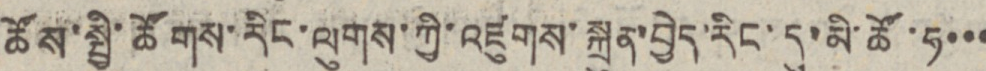ཚོས་སྤྱི་ཚོགས་རིང་ལུགས་ཀྱི་འཛུགས་སྐྲུན་བྱེད་རིང་དུ་མི་ཚོ་ཧ་་་
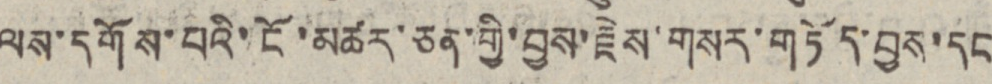ལས་དགོས་པའི་ངོ་མཚར་ཅན་གྱི་བྱས་རྗེས་གསར་གཏོད་བྱས་དང
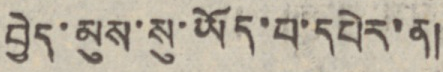བྱེད་མུས་སུ་ཡོད་པ་དཔེར་ན།
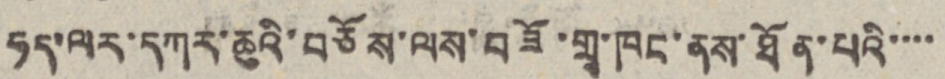ཧད་ལར་དཀར་ཆུའི་བཅོས་ལས་བཟོ་གྲྭ་ཁང་ནས་ཐོན་པའི་་་་
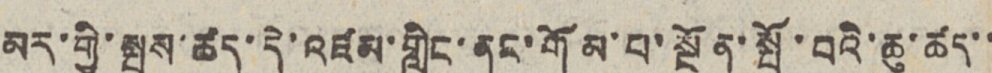མར་གྱི་སྤུས་ཚད་དེ་འཛམ་གླིང་ནང་གོམ་པ་སྔོན་སྤོ་བའི་ཆུ་ཚད་་
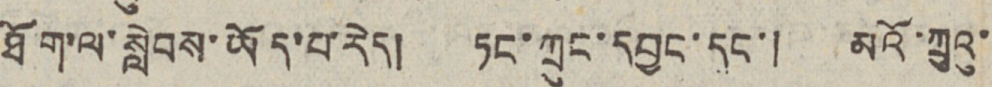ཐོག་ལ་སླེབས་ཡོད་པ་རེད། ཏང་ཀྲུང་དབྱང་དང་། མའོ་ཀྲུའུ་
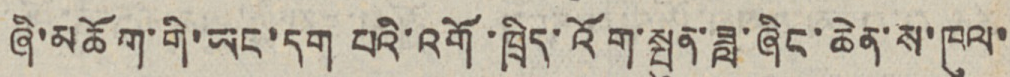ཞི་མཆོག་གི་ཡང་དག པའི་འགོ་ཁྲིད་འོག་སྤུན་ཟླ་ཞིང་ཆེན་ས་ཁུལ་
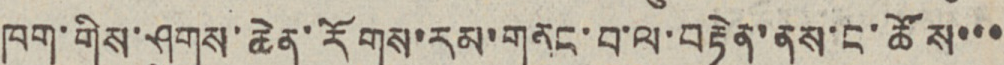ཁག་གིས་ཤུགས་ཆེན་རོགས་རམ་གནང་བ་ལ་བརྟེན་ནས་ང་ཚོས་་་
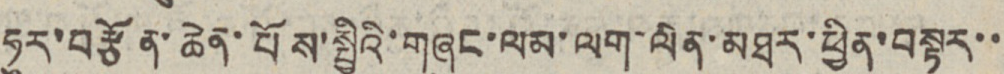ཧུར་བརྩོན་ཆེན་པོས་སྤྱིའི་གཞུང་ལམ་ལག་ལེན་མཐར་ཕྱིན་བསྟར་་
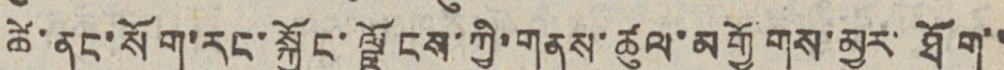ཚེ་ནང་སོག་རང་སྐྱོང་ལྗོངས་ཀྱི་གནས་ཚུལ་མགྱོགས་མྱུར་ཐོག་་
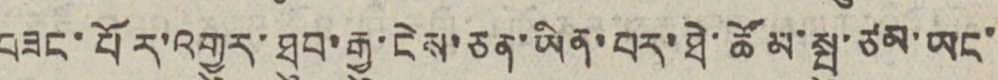བཟང་པོར་འགྱུར་ཐུབ་རྒྱུ་ངེས་ཅན་ཡིན་པར་ཐེ་ཚོམ་སྤུ་ཙམ་ཡང་
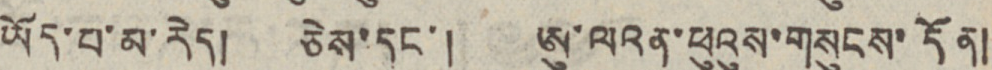ཡོད་པ་མ་རེད། ཅེས་དང་། ཨུ་ལའན་ཕུའུས་གསུངས་དོན།
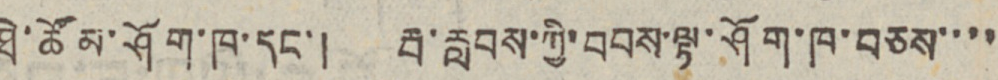ཐེ་ཚོམ་ཤོག་ཁ་དང་། རྦ་རླབས་ཀྱི་བབས་ལྟ་ཤོག་ཁ་བཅས་་་་
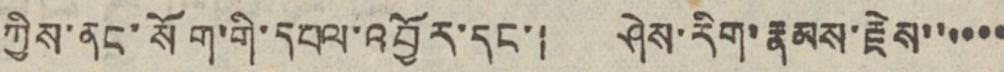ཀྱིས་ནང་སོག་གི་དཔལ་འབྱོར་དང་། ཤེས་རིག་རྣམས་རྗེས་་་་་་
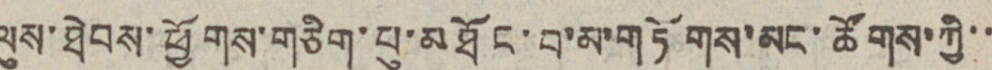ལུས་ཐེབས་ཕྱོགས་གཅིག་པུ་མཐོང་བུ་མ་གཏོགས་མང་ཚོགས་ཀྱི་་
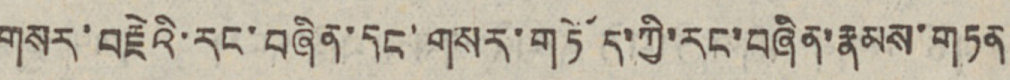གསར་བརྗེའི་རང་བཞིན་དང་གསར་གཏོད་ཀྱི་རང་བཞིན་རྣམས་གཏན
